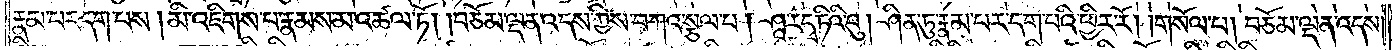རྣམ་པར་དག་པས། མི་འཇིགས་པ་རྣམས་མ་འཚལ་ཏོ། །བཅོམ་ལྡན་འདས་ཀྱིས་བཀའ་སྩལ་པ། ཤཱ་ར་དྭ་ཏིའི་བུ། ཤིན་ཏུ་རྣམ་པར་དག་པའི་ཕྱིར་རོ། །གསོལ་པ། བཅོམ་ལྡན་འདས།
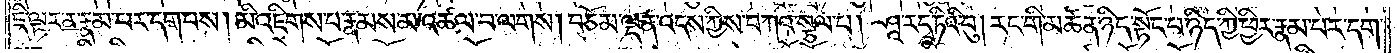ཇི་ལྟར་ན་རྣམ་པར་དག་པས། མི་འཇིགས་པ་རྣམས་མ་འཚལ་བ་ལགས། བཅོམ་ལྡན་འདས་ཀྱིས་བཀའ་སྩལ་པ། ཤཱ་ར་དྭ་ཏིའི་བུ། རང་གི་མཚན་ཉིད་སྟོང་པ་ཉིད་ཀྱི་ཕྱིར་རྣམ་པར་དག་
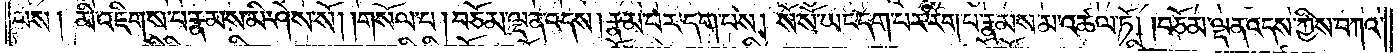པས། མི་འཇིགས་པ་རྣམས་མི་ཤེས་སོ། །གསོལ་པ། བཅོམ་ལྡན་འདས། རྣམ་པར་དག་པས། སོ་སོ་ཡང་དག་པར་རིག་པ་རྣམས་མ་འཚལ་ཏོ། །བཅོམ་ལྡན་འདས་ཀྱིས་བཀའ་
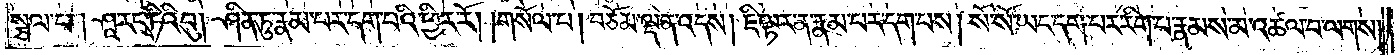སྩལ་པ། ཤཱ་ར་དྭ་ཏིའི་བུ། ཤིན་ཏུ་རྣམ་པར་དག་པའི་ཕྱིར་རོ། །གསོལ་པ། བཅོམ་ལྡན་འདས། ཇི་ལྟར་ན་རྣམ་པར་དག་པས། སོ་སོ་ཡང་དག་པར་རིག་པ་རྣམས་མ་འཚལ་བ་ལགས།
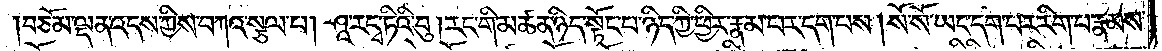བཅོམ་ལྡན་འདས་ཀྱིས་བཀའ་སྩལ་པ། ཤཱ་ར་དྭ་ཏིའི་བུ། རང་གི་མཚན་ཉིད་སྟོང་པ་ཉིད་ཀྱི་ཕྱིར་རྣམ་པར་དག་པས། སོ་སོ་ཡང་དག་པར་རིག་པ་རྣམས་
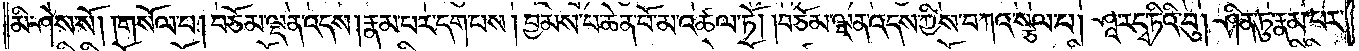མི་ཤེས་སོ། །གསོལ་པ། བཅོམ་ལྡན་འདས། རྣམ་པར་དག་པས། བྱམས་པ་ཆེན་པོ་མ་འཚལ་ཏོ། །བཅོམ་ལྡན་འདས་ཀྱིས་བཀའ་སྩལ་པ། ཤཱ་ར་དྭ་ཏིའི་བུ། ཤིན་ཏུ་རྣམ་པར་
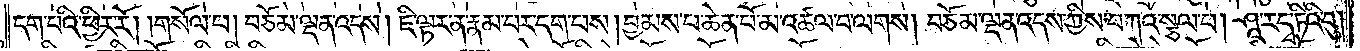དག་པའི་ཕྱིར་རོ། །གསོལ་པ། བཅོམ་ལྡན་འདས། ཇི་ལྟར་ན་རྣམ་པར་དག་པས། བྱམས་པ་ཆེན་པོ་མ་འཚལ་བ་ལགས། བཅོམ་ལྡན་འདས་ཀྱིས་བཀའ་སྩལ་པ། ཤཱ་ར་དྭ་ཏིའི་བུ།
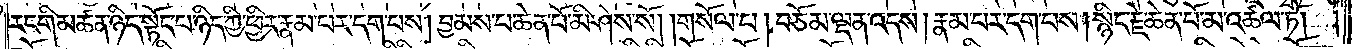རང་གི་མཚན་ཉིད་སྟོང་པ་ཉིད་ཀྱི་ཕྱིར་རྣམ་པར་དག་པས། བྱམས་པ་ཆེན་པོ་མི་ཤེས་སོ། །གསོལ་པ། བཅོམ་ལྡན་འདས། རྣམ་པར་དག་པས། སྙིང་རྗེ་ཆེན་པོ་མ་འཚལ་ཏོ། །
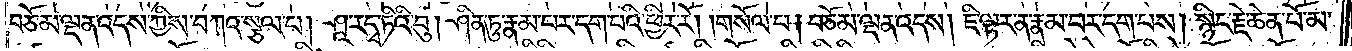བཅོམ་ལྡན་འདས་ཀྱིས་བཀའ་སྩལ་པ། ཤཱ་ར་དྭ་ཏིའི་བུ། ཤིན་ཏུ་རྣམ་པར་དག་པའི་ཕྱིར་རོ། །གསོལ་པ། བཅོམ་ལྡན་འདས། ཇི་ལྟར་ན་རྣམ་པར་དག་པས། སྙིང་རྗེ་ཆེན་པོ་མ་
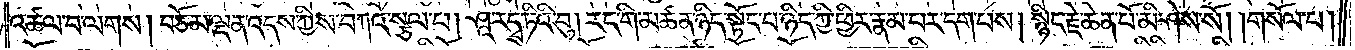འཚལ་བ་ལགས། བཅོམ་ལྡན་འདས་ཀྱིས་བཀའ་སྩལ་པ། ཤཱ་ར་དྭ་ཏིའི་བུ། རང་གི་མཚན་ཉིད་སྟོང་པ་ཉིད་ཀྱི་ཕྱིར་རྣམ་པར་དག་པས། སྙིང་རྗེ་ཆེན་པོ་མི་ཤེས་སོ། །གསོལ་པ།
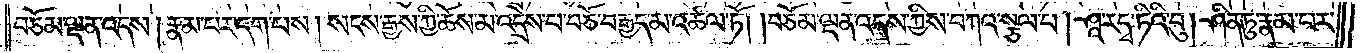བཅོམ་ལྡན་འདས། རྣམ་པ་དག་པས། སངས་རྒྱས་ཀྱི་ཆོས་མ་འདྲེས་པ་བཅོ་བརྒྱད་མ་འཚལ་ཏོ། །བཅོམ་ལྡན་འདས་ཀྱིས་བཀའ་སྩལ་པ། ཤཱ་ར་དྭ་ཏིའི་བུ། ཤིན་ཏུ་རྣམ་པར་
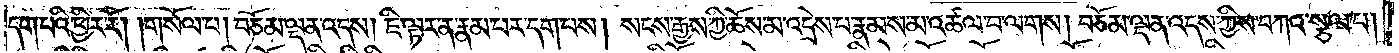དག་པའི་ཕྱིར་རོ། །གསོལ་པ། བཅོམ་ལྡན་འདས། ཇི་ལྟར་ན་རྣམ་པར་དག་པས། སངས་རྒྱས་ཀྱི་ཆོས་མ་འདྲེས་པ་རྣམས་མ་འཚལ་བ་ལགས། བཅོམ་ལྡན་འདས་ཀྱིས་བཀའ་སྩལ་པ།
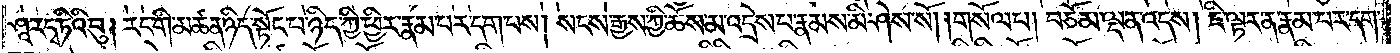ཤཱ་ར་དྭ་ཏིའི་བུ། རང་གི་མཚན་ཉིད་སྟོང་པ་ཉིད་ཀྱི་ཕྱིར་རྣམ་པར་དག་པས། སངས་རྒྱས་ཀྱི་ཆོས་མ་འདྲེས་པ་རྣམས་མི་ཤེས་སོ། །གསོལ་པ། བཅོམ་ལྡན་འདས། ཇི་ལྟར་ན་རྣམ་པར་དག་
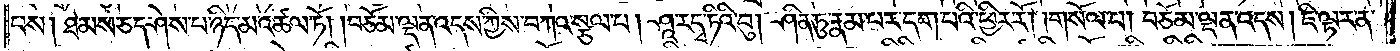པས། ཐམས་ཅད་ཤེས་པ་ཉིད་མ་འཚལ་ཏོ། །བཅོམ་ལྡན་འདས་ཀྱིས་བཀའ་སྩལ་པ། ཤཱ་ར་དྭ་ཏིའི་བུ། ཤིན་ཏུ་རྣམ་པར་དག་པའི་ཕྱིར་རོ། །གསོལ་པ། བཅོམ་ལྡན་འདས། ཇི་ལྟར་ན་
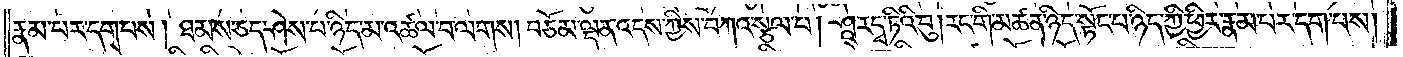རྣམ་པར་དག་པས། ཐམས་ཅད་ཤེས་པ་ཉིད་མ་འཚལ་བ་ལགས། བཅོམ་ལྡན་འདས་ཀྱིས་བཀའ་སྩལ་པ། ཤཱ་ར་དྭ་ཏིའི་བུ། རང་གི་མཚན་ཉིད་སྟོང་པ་ཉིད་ཀྱི་ཕྱིར་རྣམ་པར་དག་པས།
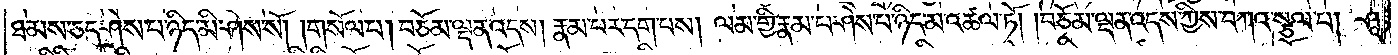ཐམས་ཅད་ཤེས་པ་ཉིད་མི་ཤེས་སོ། །གསོལ་པ། བཅོམ་ལྡན་འདས། རྣམ་པར་དག་པས། ལམ་གྱི་རྣམ་པ་ཤེས་པ་ཉིད་མ་འཚལ་ཏོ། །བཅོམ་ལྡན་འདས་ཀྱིས་བཀའ་སྩལ་པ། ཤཱ་
